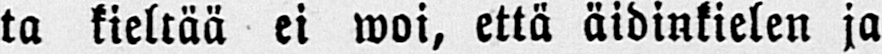ta kieltää ei woi, että äidinkielen ja
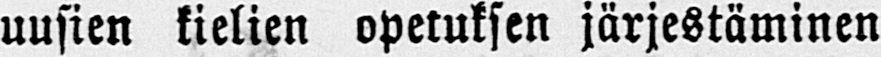uusien kielien opetuksen järjestäminen
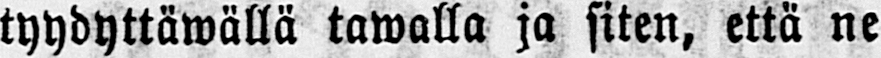tyydyttäwällä tawalla ja siten, että ne
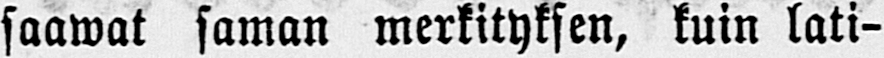saawat saman merkityksen, kuin lati-
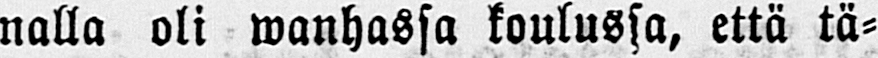nalla oli wanhassa koulussa, että tä-
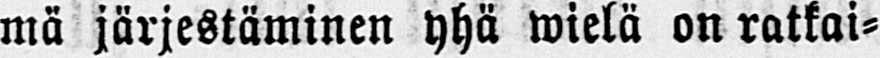mä järjestäminen yhä wielä on ratkai-
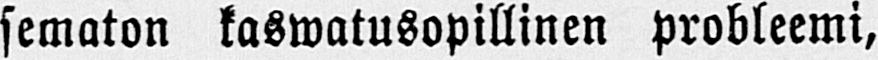sematon kaswatusopillinen probleemi,
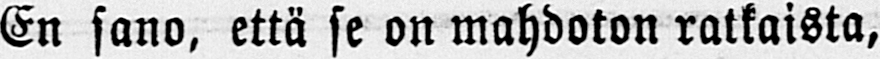En sano, että se on mahdoton ratkaista,
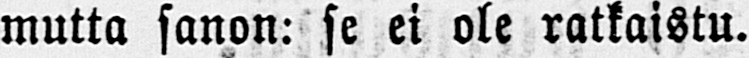mutta sanon: se ei ole ratkaistu.
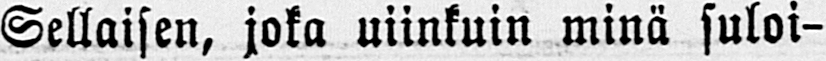Sellaisen, joka niinkuin minä suloi-
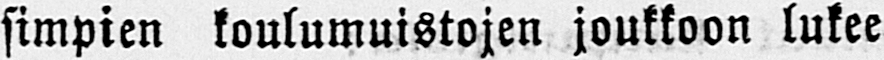simpien koulumuistojen joukkoon lukee
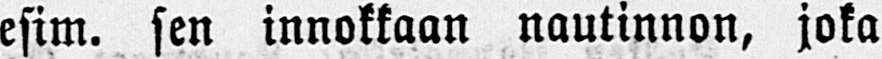esim. sen innokkaan nautinnon, joka
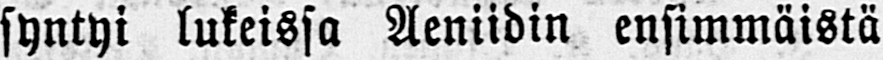syntyi lukeissa Aeniidin ensimmäistä
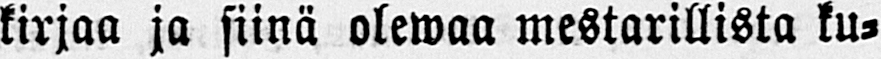kirjaa ja siinä olewaa mestarillista ku-
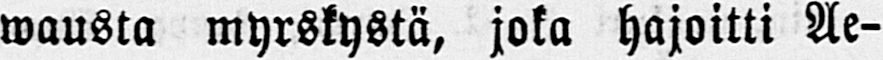wausta myrskystä, joka hajoitti Ae-
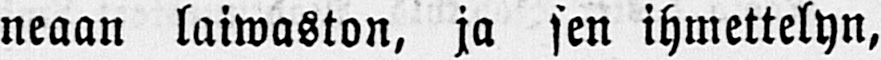neaan laiwaston, ja sen ihmettelyn,
